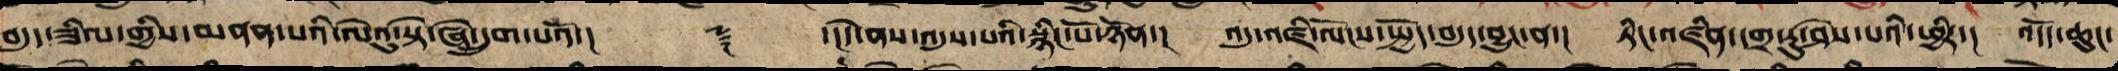བདུད་ཟིལ་གྱིས་མནན་པའི་ལེའུ་སྟེ་ཞེ་དྲུག་པའོ་།། ༈ ་།།དེ་ཡང་འདུས་པའི་སྙིང་པོ་ཉོན་། འདུ་འཛི་ལོངས་སྤྱོད་བདུད་བྱུང་ན་། ཏིང་འཛིན་དགྲ་རུ་ཤེས་པའི་ཕྱིར་། འདོད་ཆུང་
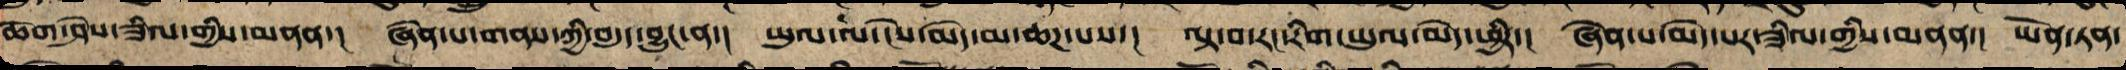ཆོག་ཤེས་ཟིལ་གྱིས་མནན་། ཞེན་པ་གནས་ཀྱི་བདུད་བྱུང་ན་། ཡུལ་ལ་ངེས་མེད་མ་ཆཌ་པས་། ལྟ་བ་རང་རིག་ཡུལ་མེད་ཕྱིར་། ཞེན་པ་མེད་པར་ཟིལ་གྱིས་མནན་། ཡོན་ཏན་
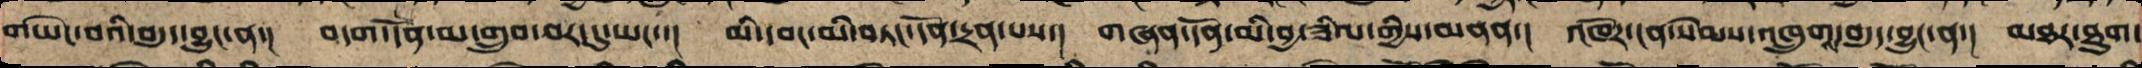གཡེང་བའི་བདུད་བྱུང་ན་། བདག་དོན་མ་གྲུབ་བར་དུ་ཡང་་། མི་དབང་མི་བཏང་དོན་དྲན་པས་། གཞན་དོན་མི་བྱ་ཟིལ་གྱིས་མནན་། འཁོར་ངན་སེམས་འཁྲུགས་བདུད་བྱུང་ན་། མཐར་ཐུག་
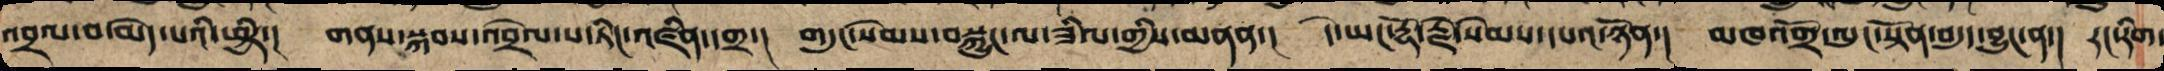འབྲལ་བ་མེད་པའི་ཕྱིར་། གནས་སྐབས་འབྲེལ་བ་ཏིང་འཛིན་དགྲ་། གདུང་སེམས་བསྐྱུངས་ལ་ཟིལ་གྱིས་མནན་། དེ་ཡང་རྡོ་རྗེ་སེམས་དཔའ་ཉོན་། མཁའགྲོ་ལུང་སྟོན་བདུད་བྱུང་ན་། རང་རིག་
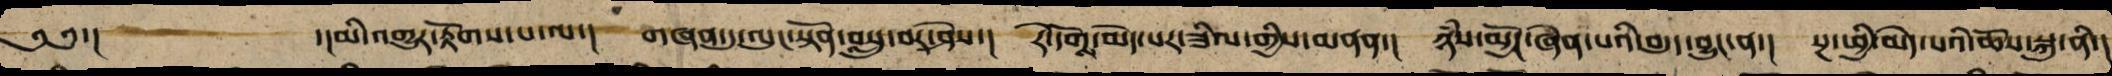༄༅་། ་།མི་འགྱུར་རྟོགས་པ་ལས་། གཞན་དུ་ལུང་སྟོན་བསླུ་བར་ཤེས་། རེ་དོགས་མེད་པར་ཟིལ་གྱིས་མནན་། ཉཾས་མྱོང་ཞེན་པའི་བདུད་བྱུང་ན་། སྔ་ཕྱི་མེད་པའི་ཆོས་སྐུ་ནི་།
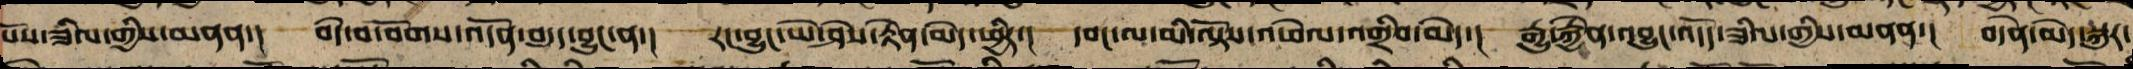པོའི་ཟིལ་གྱིས་མནན་། བདེ་བ་བོགས་འདོན་བདུད་བྱུང་ན་། རང་བྱུང་ཡེ་ཤེས་རྟེན་མེད་ཕྱིར་། དབང་ལ་མི་ལྟོས་འཕེལ་འགྲིབ་མེད་། རྒྱུ་རྐྱེན་འབྱུང་འདོད་ཟིལ་གྱིས་མནན་། བདེན་མེད་སྐུར་
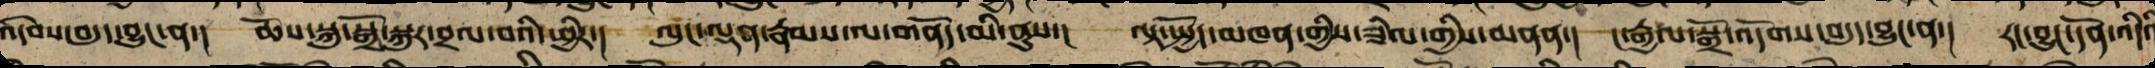འདེབས་བདུད་བྱུང་ན་། ཆོས་སྐུ་སྒྲོ་སྐུར་བྲལ་བའི་ཕྱིར་། ལུང་ལྡན་རྣམས་ལ་གནོད་མི་ནུས་། ལྟ་སྤྱོད་མཁན་གྱིས་ཟིལ་གྱིས་མནན་། ང་རྒྱལ་སྒྲོ་འདོགས་བདུད་བྱུང་ན་། རང་བྱུང་དོན་འདིའི
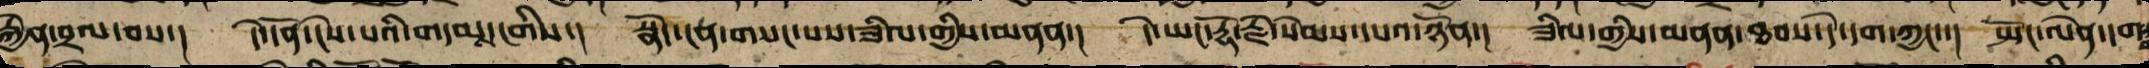སྐྱོན་བྲལ་བས་། དེ་དོན་ངེས་པའི་གདམས་ངག་ནི་། སྣོད་ངན་གསང་བའི་ཟིལ་གྱིས་མནན་། དེ་ཡང་རྡོ་རྗེ་སེམས་དཔའ་ཉོན་། ཟིལ་གྱིས་མནན་ཐབས་དེ་དག་ཀྱང་་། སྤང་ལེན་དགག
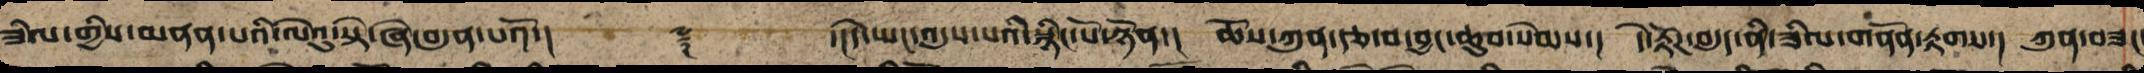ཟིལ་གྱིས་མནན་པའི་ལེའུ་སྟེ་ཞེ་བདུན་པའོ་།། ༈ ་།།དེ་ཡང་འདུས་པའི་སྙིང་པོ་ཉོན་། ཆོས་ཀུན་རྩ་བ་བྱང་ཆུབ་སེམས་། དེ་རྟོཌ་བདུད་ནི་ཟིལ་ནོན་རྟགས་། ཀུན་བཟང
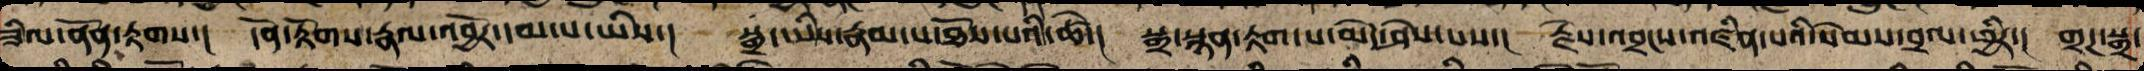ཟིལ་ནོན་རྟགས་། དོན་རྟོགས་རྣལ་འབྱོར་དམ་པ་ཡིས་། སྒྲ་ཡིས་རྣམ་པ་ཐོས་པའི་ཚེ་། སྒྲ་བརྙན་རྟག་པ་མེད་ཤེས་པས་། རྗེས་འབྲངས་འཛིན་པའི་སེམས་བྲལ་ཕྱིར་། གྲཌ་སྒྲ་
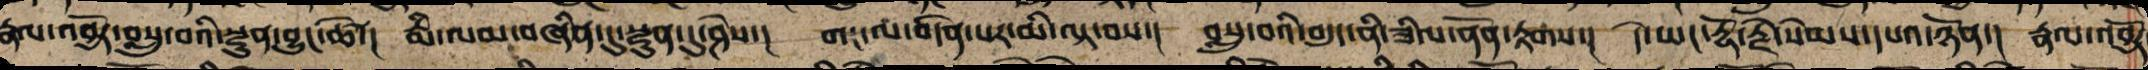རྣལ་འབྱོར་བསླུ་བའི་སྫུན་བྱུང་ཚེ་། རྨི་ལམ་བཞིན་དུ་སྫུན་དུ་ཤེས་། གང་ལ་བདེན་པར་མི་ལྟ་བས་། བསླུ་བའི་བདུད་ནི་ཟིལ་ནོན་རྟགས་། དེ་ཡང་རྡོ་རྗེ་སེམས་དཔའ་ཉོན་། རྣལ་འབྱོར
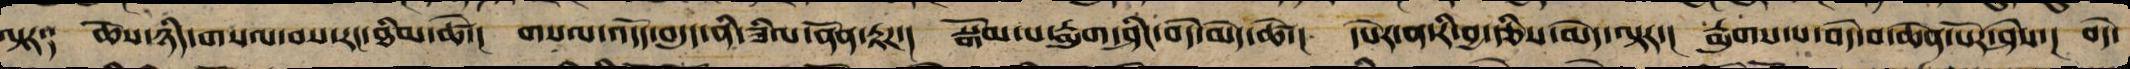ལྟར༑ ཆོས་ཉིད་གསལ་བ་རང་ཐིམ་ཚེ་། གསལ་འདོད་བདུད་ནི་ཟིལ་ནོན་རྟཌ་། སྒོམ་པ་རྨུག་ཤིང་བདེ་མེད་ཚེ་། དཔེར་ན་རི་བྱ་རྩིས་མེད་ལྟར་། རྨུགས་པ་བདེ་བ་ཆེན་པོར་ཤེས་། བདེ་
